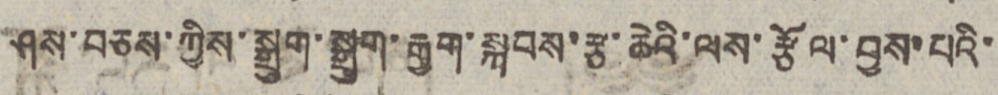ཤས་བཅས་ཀྱིས་སྒྲུག་སྒྲུག་རྒྱག་སྐབས་རྩ་ཆེའི་ལས་རྩོལ་བྱས་པའི་
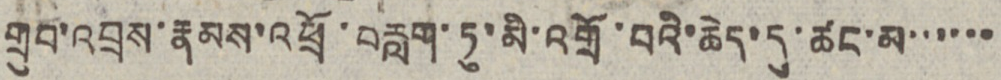གྲུབ་འབྲས་རྣམས་འཕྲོ་བརླག་ཏུ་མི་འགྲོ་བའི་ཆེད་དུ་ཚང་མ་་་་་་
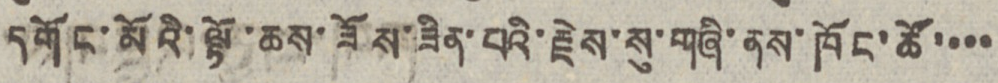དགོང་མོའི་ལྟོ་ཆས་ཟོས་ཟིན་པའི་རྗེས་སུ་གཞི་ནས་ཁོང་ཚོ་་་་
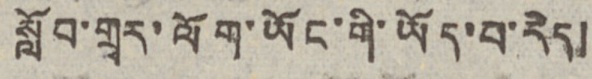སློབ་གྲྭར་ལོག་ཡོང་གི་ཡོད་པ་རེད།
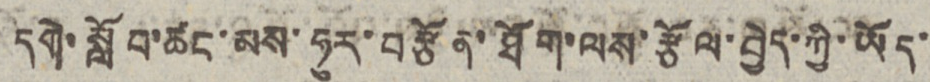དགེ་སློབ་ཚང་མས་ཧུར་བརྩོན་ཐོག་ལས་རྩོལ་བྱེད་ཀྱི་ཡོད་
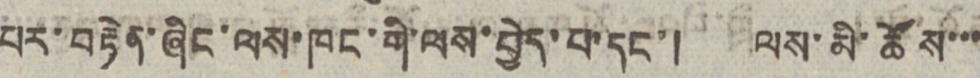པར་བརྟེན་ཞིང་ལས་ཁང་གི་ལས་བྱེད་པ་དང་། ལས་མི་ཚོས་་་
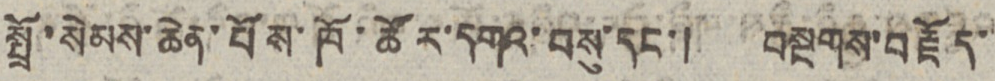སྤྲོ་སེམས་ཆེན་པོས་ཁོ་ཚོར་དགའ་བསུ་དང་། བསྔགས་བརྗོད་་
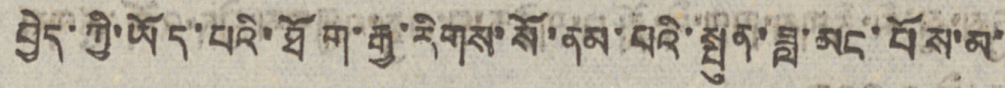བྱེད་ཀྱི་ཡོད་པའི་ཐོག་རྒྱ་རིགས་སོ་ནམ་པའི་སྤུན་ཟླ་མང་པོས་མ་
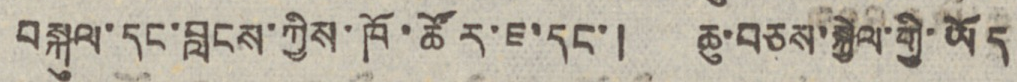བསྐུལ་དང་བླངས་ཀྱིས་ཁོ་ཚོར་ཇ་དང་། ཆུ་བཅས་སྐྱེལ་གྱི་ཡོད
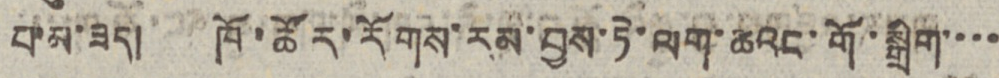པ་མ་ཟད། ཁོ་ཚོར་རོགས་རམ་བྱས་ཏེ་ལག་ཆའང་གོ་སྒྲིག་་་་
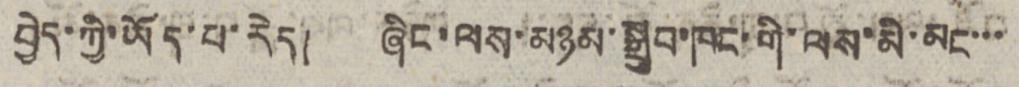བྱེད་ཀྱི་ཡོད་པ་རེད། ཞིང་ལས་མཉམ་སྒྲུབ་ཁང་གི་ལས་མི་མང་་་
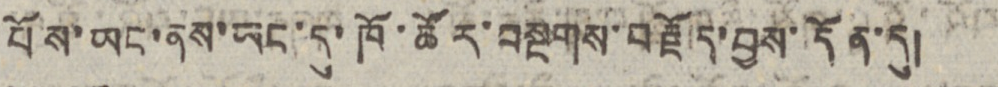པོས་ཡང་ནས་ཡང་དུ་ཁོ་ཚོར་བསྔགས་བརྗོད་བྱས་དོན་དུ།
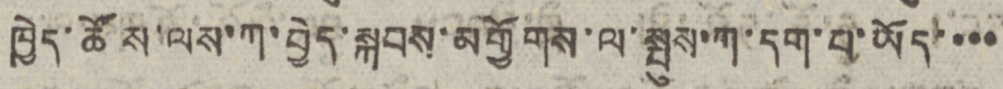ཁྱེད་ཚོས་ལས་ཀ་བྱེད་སྐབས་མགྱོགས་ལ་སྤུས་ཀ་དག་པ་ཡོད་་་་
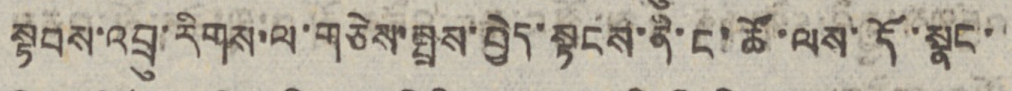སྟབས་འབྲུ་རིགས་ལ་གཅེས་སྤྲས་བྱེད་སྟངས་ནི་ང་ཚོ་ལས་དོ་་སྣང་་
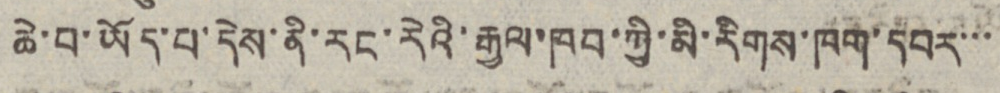ཆེ་བ་ཡོད་པ་དེས་ནི་རང་རེའི་རྒྱལ་ཁབ་ཀྱི་མི་རིགས་ཁག་དབར་་་
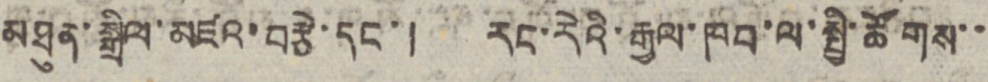མཐུན་སྒྲིལ་མཛའ་བརྩེ་དང་། རང་རེའི་རྒྱལ་ཁབ་ལ་སྤྱི་ཚོགས་་
